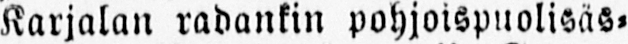Karjalan radankin pohjoispuolisäs-
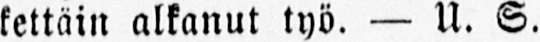kettäin alkanut työ. — U. S.
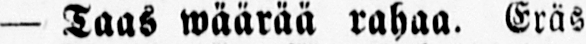— Taas wäärää rahaa. Eräs
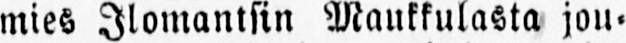mies Ilomantsin Maukkulasta jou-
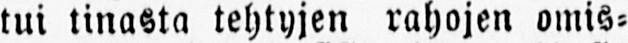tui tinasta tehtyjen rahojen omis-
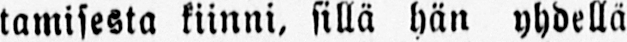tamisesta kiinni, sillä hän yhdellä
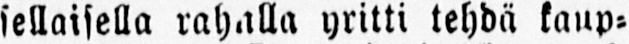sellaisella rahalla yritti tehdä kaup-
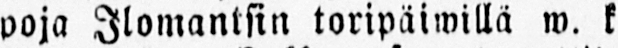poja Ilomantsin toripäiwillä w. k
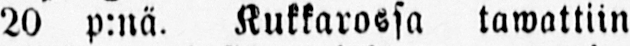20 p:nä. Kukkarossa tawattiin
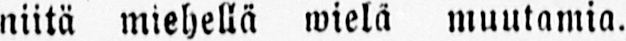niitä miehellä wielä muutamia.
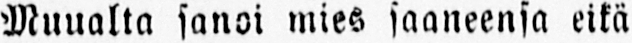Muualta sanoi mies saaneensa eikä
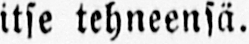itse tehneensä.
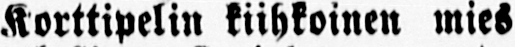Korttipelin kiihkoinen mies
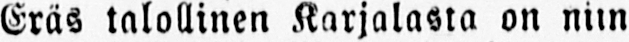Eräs talollinen Karjalasta on niin
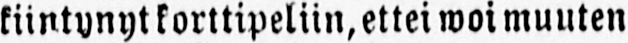kiintynyt korttipeliin, ettei woi muuten
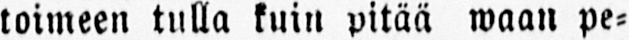loimeen tulla kuin pitää waan pe-
